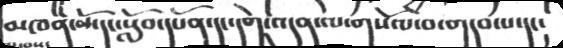མཁན་མོ་དང་སློབ་དཔོན་དང་སགེ་འདུན་ལ་གསོལ་བ་གདབ་པ་དང།
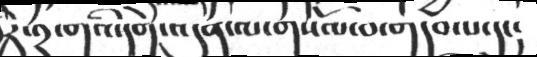རེ་༢་གའི་དགེ་འདུན་ལ་གསོལ་བ་གདབ་པ་དང།
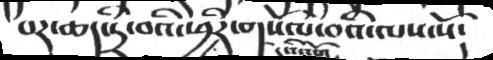བར་ཆད་དྲི་བའི་ཕྱིར་གསོལ་བའི་ལས་སོ༴
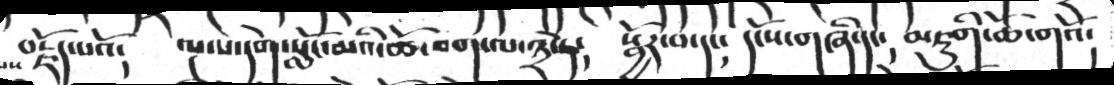བརྗོད་པའོ།  ལྔ་པ་དགེ་མའི་ཆོ་བག་ལ་༣་སྟེ།  སྦྱོལ་བ་དང།  དངོས་གཞི་དང། མཇུགི་ཆོ་གའོ།
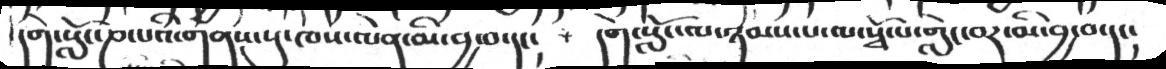དགེ་སློང་ཎ་པའི་གནས་སུ་ཁས་ལེན་མི་བྱ་བ་དང།  དགེ་སློང་ལ་ཉམས་པ་ལ་སྭོ་པ་གླེང་བར་མི་བྱ་བ་དང།
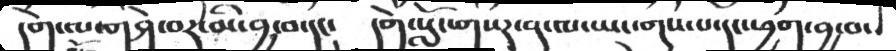དགེ་ལ་གཤེ་་བར་མི་བྱ་བ་དང།  དགེ་སློང་གསར་ན་ལ་ཡང་གུས་པ་དང་བྱག་བྱ་བ་
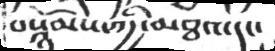བསྙོམས་ཀྱིམཐའ་དང།
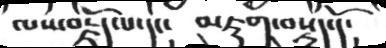ལས་བརྗོད་པ་དང།  མཇུག་བསྡུད་དོ།
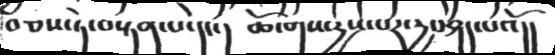བཅས་སྟེ་བསྟན་པ་དང་།  ཆོ་གས་རྱས་པར་རྱབཤད་པའོ།།
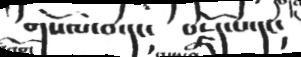གསོལ་བ་དང།  བརྗོད་པ་དང།
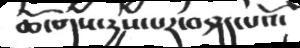ཆོ་གས་རྱས་པར་བཤད་པའོ་
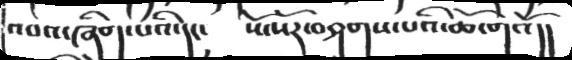འབའ་ཞིག་པའི་དང།  སོ་སོར་བཤགས་པའི་ཆོ་གའོ།།
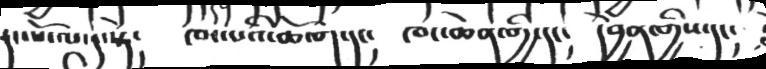དང་པོ་ལ་དུ་སྟེ།   ཁང་པའི་ཆོ་ག་དང།   ཁང་ཆེན་གྱི་དང།  དབྱེན་གྱིས་དང།
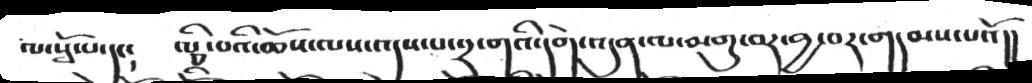ལ་སྭོ་པ་དང།  ལྕི་བའི་ཆོས་ལས་འདས་པ་༢་གའི་དགེ་འདུན་ལ་མགུ་བར་བྱ་བར་གདམས་པའོ།།
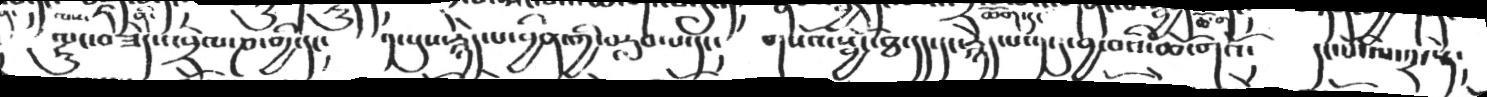ལྷུང་བཟེད་འབྲེལ་ཎ་གྱི་དང༴  ༡་པུས་རྙེད་པ་བྱིན་གྱི་བརླབ་པ་དང༴  གསོའ་སྦྱོང་ཐ་དད་དང་རྙེད་པ་༡དུ་བྱེ་བའི་ཆོ་གའོ༴   དང་པོ་ལ་༢་སྟེ༴
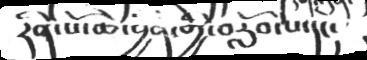རིན་པོ་ཆེ་བྱན་གྱི་བརློབ་པ་དང།
